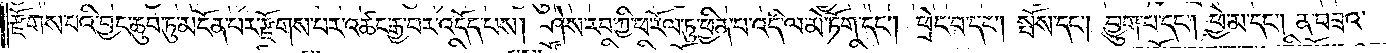རྫོགས་པའི་བྱང་ཆུབ་ཏུ་མངོན་པར་རྫོགས་པར་འཚང་རྒྱ་བར་འདོད་པས། ཤེས་རབ་ཀྱི་ཕ་རོལ་ཏུ་ཕྱིན་པ་འདི་ལ་མེ་ཏོག་དང༌། ཕྲེང་བ་དང༌། སྤོས་དང༌། བྱུག་པ་དང༌། ཕྱེ་མ་དང༌། ན་བཟའ་
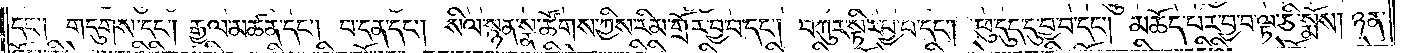དང༌། གདུགས་དང༌། རྒྱལ་མཚན་དང༌། བ་དན་དང༌། སིལ་སྙན་སྣ་ཚོགས་ཀྱིས་རིམ་གྲོར་བྱ་བ་དང༌། བཀུར་སྟིར་བྱ་བ་དང༌། ཕུ་དུད་དུ་བྱ་བ་དང༌། མཆོད་པར་བྱ་བ་ལྷ་ཅི་སྨོས། ཉན་
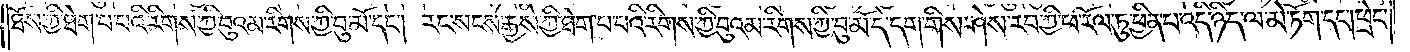ཐོས་ཀྱི་ཐེག་པའི་རིགས་ཀྱི་བུའམ་རིགས་ཀྱི་བུ་མོ་དང༌། རང་སངས་རྒྱས་ཀྱི་ཐེག་པ་པའི་རིགས་ཀྱི་བུའམ་རིགས་ཀྱི་བུ་མོ་དེ་དག་གིས་ཤེས་རབ་ཀྱི་ཕ་རོལ་ཏུ་ཕྱིན་པ་འདི་ཉིད་ལ་མེ་ཏོག་དང༌། ཕྲེང་
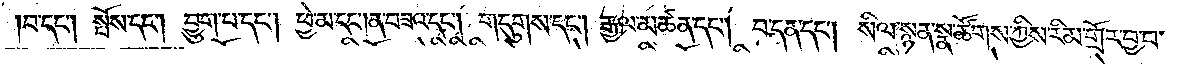བ་དང༌། སྤོས་དང༌། བྱུག་པ་དང༌། ཕྱེ་མ་དང༌། ན་བཟའ་དང༌། གདུགས་དང༌། རྒྱལ་མཚན་དང༌། བ་དན་དང༌། སིལ་སྙན་སྣ་ཚོགས་ཀྱིས་རིམ་གྲོར་བྱ་བ་
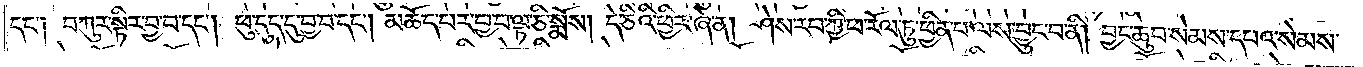དང༌། བཀུར་སྟིར་བྱ་བ་དང༌། ཕུ་དུད་དུ་བྱ་བ་དང༌། མཆོད་པར་བྱ་བ་ལྟ་ཅི་སྨོས། དེ་ཅིའི་ཕྱིར་ཞེ་ན། ཤེས་རབ་ཀྱི་ཕ་རོལ་ཏུ་ཕྱིན་པ་ལས་བྱུང་བ་ནི། བྱང་ཆུབ་སེམས་དཔའ་སེམས་
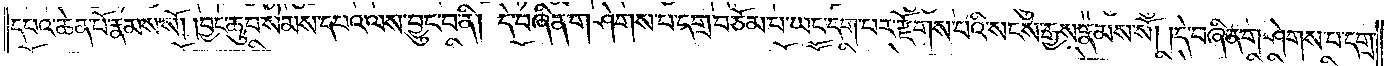དཔའ་ཆེན་པོ་རྣམས་སོ། །བྱང་ཆུབ་སེམས་དཔའ་ལས་བྱུང་བ་ནི། དེ་བཞིན་གཤེགས་པ་དགྲ་བཅོམ་པ་ཡང་དག་པར་རྫོགས་པའི་སངས་རྒྱས་རྣམས་སོ། །དེ་བཞིན་གཤེགས་པ་དགྲ་
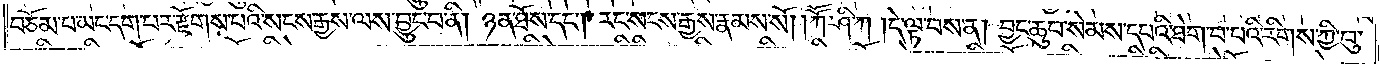བཅོམ་པ་ཡང་དག་པར་རྫོགས་པའི་སངས་རྒྱས་ལས་བྱུང་བ་ནི། ཉན་ཐོས་དང༌། རང་སངས་རྒྱས་རྣམས་སོ། །ཀཽ་ཤི་ཀ །དེ་ལྟ་བས་ན། བྱང་ཆུབ་སེམས་དཔའི་ཐེག་པ་པའི་རིགས་ཀྱི་བུ་
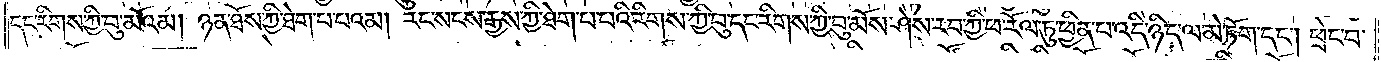དང་རིགས་ཀྱི་བུ་མོའམ། ཉན་ཐོས་ཀྱི་ཐེག་པ་པའམ། རང་སངས་རྒྱས་ཀྱི་ཐེག་པ་པའི་རིགས་ཀྱི་བུ་དང་རིགས་ཀྱི་བུ་མོས་ཤེས་རབ་ཀྱི་ཕ་རོལ་ཏུ་ཕྱིན་པ་འདི་ཉིད་ལ་མེ་ཏོག་དང༌། ཕྲེང་བ་
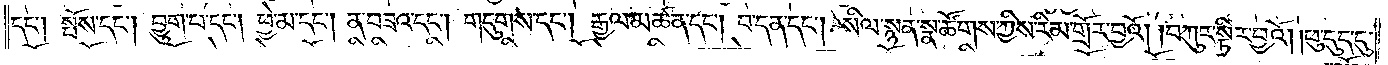དང༌། སྤོས་དང༌། བྱུག་པ་དང༌། ཕྱེ་མ་དང༌། ན་བཟའ་དང༌། གདུགས་དང༌། རྒྱལ་མཚན་དང༌། བ་དན་དང༌། སིལ་སྙན་སྣ་ཚོགས་ཀྱིས་རིམ་གྲོར་བྱའོ། །བཀུར་སྟིར་བྱའོ། །ཕུ་དུད་དུ་
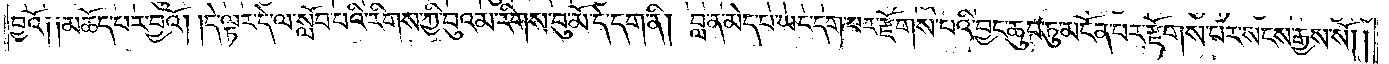བྱའོ། །མཆོད་པར་བྱའོ། །དེ་ལྟར་དེ་ལ་སློབ་པའི་རིགས་ཀྱི་བུ་འམ་རིགས་ཀྱི་བུ་མོ་དེ་དག་ནི། བླ་ན་མེད་པ་ཡང་དག་པར་རྫོགས་པའི་བྱང་ཆུབ་ཏུ་མངོན་པར་རྫོགས་པར་སངས་རྒྱས་སོ། །
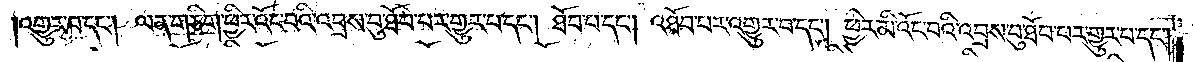འགྱུར་བ་དང༌། ལན་གཅིག་ཕྱིར་འོང་བའི་འབྲས་བུ་ཐོབ་པར་གྱུར་པ་དང༌། ཐོབ་པ་དང༌། འཐོབ་པར་འགྱུར་བ་དང༌། ཕྱིར་མི་འོང་བའི་འབྲས་བུ་ཐོབ་པར་གྱུར་པ་དང༌།
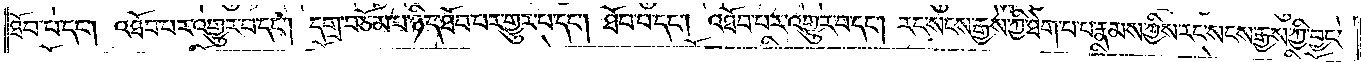ཐོབ་པ་དང༌། འཐོབ་པར་འགྱུར་བ་དང༌། དགྲ་བཅོམ་པ་ཉིད་ཐོབ་པར་གྱུར་བ་དང༌། ཐོབ་པ་དང༌། འཐོབ་པར་འགྱུར་བ་དང༌། རང་སངས་རྒྱས་ཀྱི་ཐེག་པ་པ་རྣམས་ཀྱིས་རང་སངས་རྒྱས་ཀྱི་བྱང་
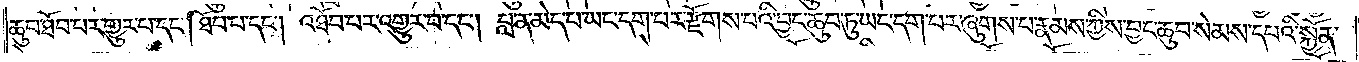ཆུབ་ཐོབ་པར་གྱུར་པ་དང༌། ཐོབ་པ་དང༌། འཐོབ་པར་འགྱུར་བ་དང༌། བླ་ན་མེད་པ་ཡང་དག་པར་རྫོགས་པའི་བྱང་ཆུབ་ཏུ་ཡང་དག་པར་ཞུགས་པ་རྣམས་ཀྱིས་བྱང་ཆུབ་སེམས་དཔའི་སྐྱོན་
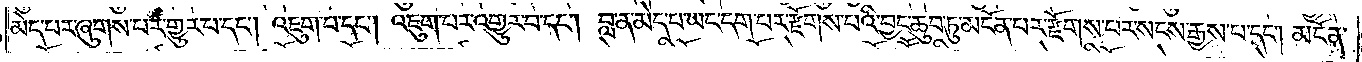མེད་པར་ཞུགས་པར་གྱུར་པ་དང༌། འཇུག་པ་དང༌། འཇུག་པར་འགྱུར་བ་དང༌། བླ་ན་མེད་པ་ཡང་དག་པར་རྫོགས་པའི་བྱང་ཆུབ་ཏུ་མངོན་པར་རྫོགས་པར་སངས་རྒྱས་པ་དང༌། མངོན་
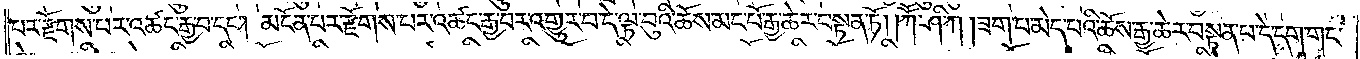པར་རྫོགས་པར་འཚང་རྒྱ་བ་དང༌། མངོན་པར་རྫོགས་པར་འཚང་རྒྱ་བར་འགྱུར་བ་དེ་ལྟ་བུའི་ཆོས་མང་པོ་རྒྱ་ཆེར་བསྟན་ཏོ། །ཀཽ་ཤི་ཀ །ཟག་པ་མེད་པའི་ཆོས་རྒྱ་ཆེར་བསྟན་པ་དེ་དག་གང་
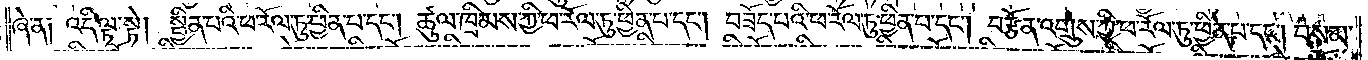ཞེ་ན། འདི་ལྟ་སྟེ། སྦྱིན་པའི་ཕ་རོལ་ཏུ་ཕྱིན་པ་དང༌། ཚུལ་ཁྲིམས་ཀྱི་ཕ་རོལ་ཏུ་ཕྱིན་པ་དང༌། བཟོད་བའི་ཕ་རོལ་ཏུ་ཕྱིན་པ་དང༌། བརྩོན་འགྲུས་ཀྱི་ཕ་རོལ་ཏུ་ཕྱིན་པ་དང༌། བསམ་
